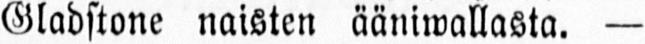Gladstone naisten ääniwallasta. —
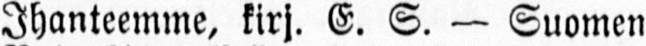Ihanteemme, kirj. E. S. — Suomen
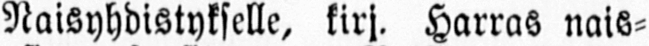Naisyhdistykselle, kirj. Harras nais-
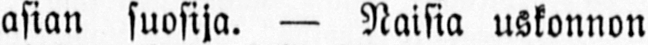asian suosija. — Naisia uskonnon
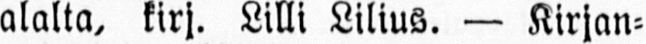alalta, kirj. Lilli Lilius. — Kirjan-
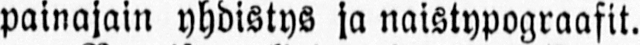painajani yhdistys ja naistypograafit.
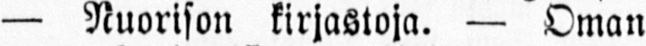— Nuorison kirjastoja. — Oman
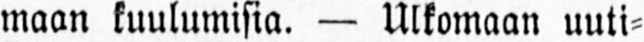maan kuulumisia. — Ulkomaan uuti-
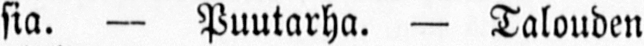sia. — Puutarha. — Talouden
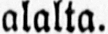alalta.
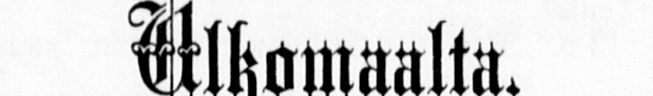Ulkomaalta.
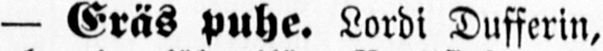— Eräs puhe. Lordi Dufferin,
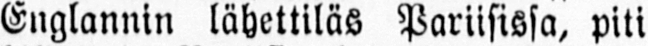Englannin lähettiläs Pariisissa, piti
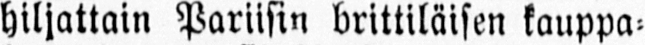hiljattain Pariisin brittiläisen kauppa-
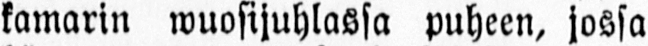kamarin wuosijuhlassa puheen, jossa
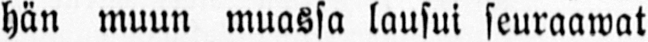hän muun muassa lausui seuraawat
